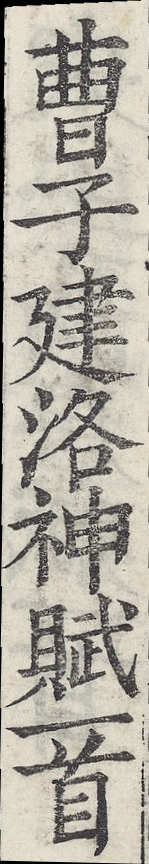曹子建洛神賦一首
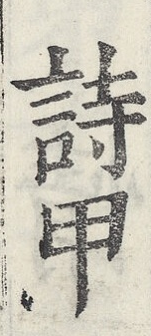詩甲
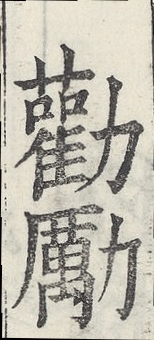權勵
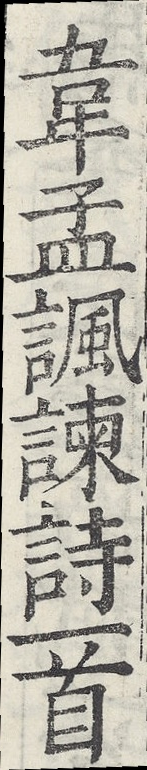韋孟諷諫一首
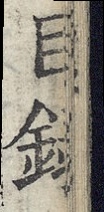目錄
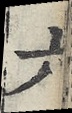六
